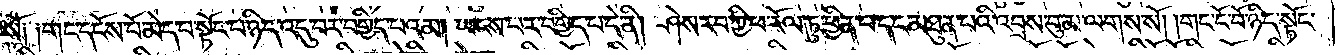སོ༑ ༑གང་དངོས་པོ་མེད་པ་སྟོང་པ་ཉིད་འདུ་བར་བགྱིད་པའམ། ཡངས་པར་བགྱིད་པ་དེ་ནི། ཤེས་རབ་ཀྱི་ཕ་རོལ་ཏུ་ཕྱིན་པ་དང་མཐུན་པའི་འབྲས་བུ་མ་ལགས་སོ། །གང་ངོ་བོ་ཉིད་སྟོང་
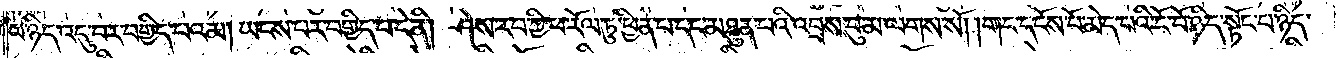པ་ཉིད་འདུ་བར་བགྱིད་པའམ། ཡངས་པར་བགྱིད་པ་དེ་ནི། ཤེས་རབ་ཀྱི་ཕ་རོལ་ཏུ་ཕྱིན་པ་དང་མཐུན་པའི་འབྲས་བུ་མ་ལགས་སོ། །གང་དངོས་པོ་མེད་པའི་ངོ་བོ་ཉིད་སྟོང་པ་ཉིད་
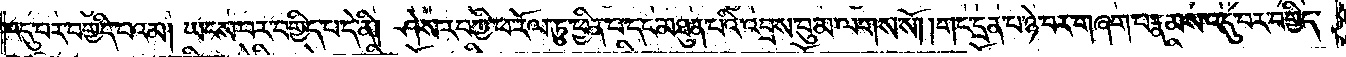འདུ་བར་བགྱིད་པའམ། ཡངས་པར་བགྱིད་པ་དེ་ནི། ཤེས་རབ་ཀྱི་ཕ་རོལ་ཏུ་ཕྱིན་པ་དང་མཐུན་པའི་འབྲས་བུ་མ་ལགས་སོ། །གང་དྲན་པ་ཉེ་བར་གཞག་པ་རྣམས་འདུ་བར་བགྱིད་
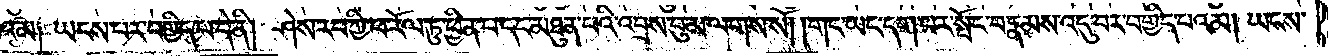པའམ༑ ཡངས་པར་བགྱིད་པ་དེ་ནི། ཤེས་རབ་ཀྱི་ཕ་རོལ་ཏུ་ཕྱིན་པ་དང་མཐུན་པའི་འབྲས་བུ་མ་ལགས་སོ། །གང་ཡང་དག་པར་སྤོང་བ་རྣམས་འདུ་བར་བགྱིད་པའམ། ཡངས་
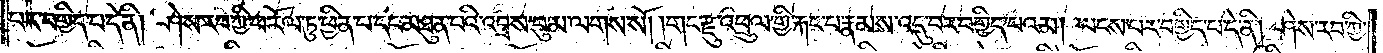པར་བགྱིད་པ་དེ་ནི། ཤེས་རབ་ཀྱི་ཕ་རོལ་ཏུ་ཕྱིན་པ་དང་མཐུན་པའི་འབྲས་བུ་མ་ལགས་སོ། །གང་རྫུ་འཕྲུལ་གྱི་རྐང་པ་རྣམས་འདུ་བར་བགྱིད་པའམ། ཡངས་པར་བགྱིད་པ་དེ་ནི། ཤེས་རབ་ཀྱི་
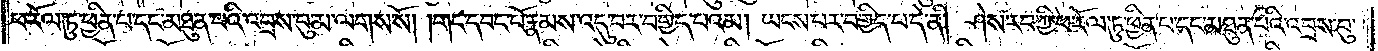ཕ་རོལ་ཏུ་ཕྱིན་པ་དང་མཐུན་པའི་འབྲས་བུ་མ་ལགས་སོ། །གང་དབང་པོ་རྣམས་འདུ་བར་བགྱིད་པའམ། ཡངས་པར་བགྱིད་པ་དེ་ནི། ཤེས་རབ་ཀྱི་ཕ་རོལ་ཏུ་ཕྱིན་པ་དང་མཐུན་པའི་འབྲས་བུ་
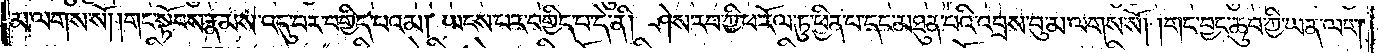མ་ལགས་སོ། །གང་སྟོབས་རྣམས་འདུ་བར་བགྱིད་པའམ། ཡངས་པར་བགྱིད་པ་དེ་ནི། ཤེས་རབ་ཀྱི་ཕ་རོལ་ཏུ་ཕྱིན་པ་དང་མཐུན་པའི་འབྲས་བུ་མ་ལགས་སོ། །གང་བྱང་ཆུབ་ཀྱི་ཡན་ལག་
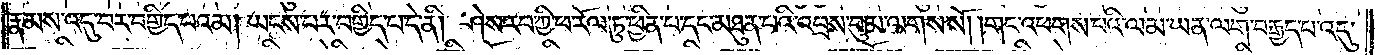རྣམས་འདུ་བར་བགྱིད་པའམ། ཡངས་པར་བགྱིད་པ་དེ་ནི། ཤེས་རབ་ཀྱི་ཕ་རོལ་ཏུ་ཕྱིན་པ་དང་མཐུན་པའི་འབྲས་བུ་མ་ལགས་སོ། །གང་འཕགས་པའི་ལམ་ཡན་ལག་བརྒྱད་པ་འདུ་
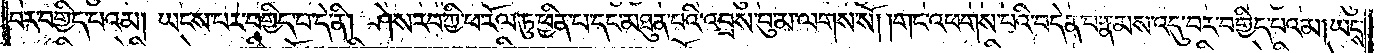བར་བགྱིད་པའམ། ཡངས་པར་བགྱིད་པ་དེ་ནི། ཤེས་རབ་ཀྱི་ཕ་རོལ་ཏུ་ཕྱིན་པ་དང་མཐུན་པའི་འབྲས་བུ་མ་ལགས་སོ། །གང་འཕགས་པའི་བདེན་པ་རྣམས་འདུ་བར་བགྱིད་པའམ། ཡངས་
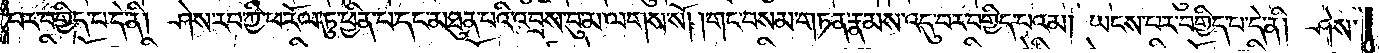པར་བགྱིད་པ་དེ་ནི། ཤེས་རབ་ཀྱི་ཕ་རོལ་ཏུ་ཕྱིན་པ་དང་མཐུན་པའི་འབྲས་བུ་མ་ལགས་སོ། །གང་བསམ་གཏན་རྣམས་འདུ་བར་བགྱིད་པའམ། ཡངས་པར་བགྱིད་པ་དེ་ནི། ཤེས་
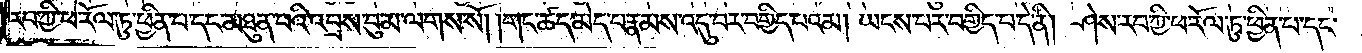རབ་ཀྱི་ཕ་རོལ་ཏུ་ཕྱིན་པ་དང་མཐུན་པའི་འབྲས་བུ་མ་ལགས་སོ། །གང་ཚད་མེད་པ་རྣམས་འདུ་བར་བགྱིད་པའམ། ཡངས་པར་བགྱིད་པ་དེ་ནི། ཤེས་རབ་ཀྱི་ཕ་རོལ་ཏུ་ཕྱིན་པ་དང་
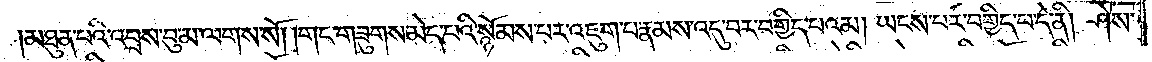མཐུན་པའི་འབྲས་བུ་མ་ལགས་སོ། །གང་གཟུགས་མེད་པའི་སྙོམས་པར་འཇུག་པ་རྣམས་འདུ་བར་བགྱིད་པའམ། ཡངས་པར་བགྱིད་པ་དེ་ནི། ཤེས་
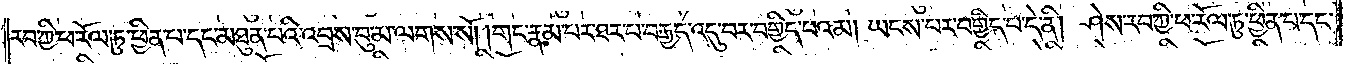རབ་ཀྱི་ཕ་རོལ་ཏུ་ཕྱིན་པ་དང་མཐུན་པའི་འབྲས་བུ་མ་ལགས་སོ། །གང་རྣམ་པར་ཐར་པ་བརྒྱད་འདུ་བར་བགྱིད་པའམ། ཡངས་པར་བགྱིད་པ་དེ་ནི། ཤེས་རབ་ཀྱི་ཕ་རོལ་ཏུ་ཕྱིན་པ་དང་
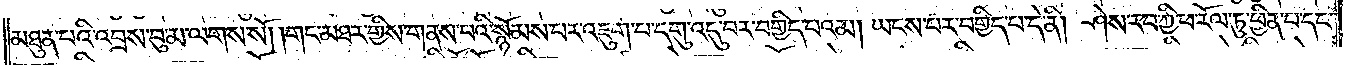མཐུན་པའི་འབྲས་བུ་མ་ལགས་སོ། །གང་མཐར་གྱིས་གནས་པའི་སྙོམས་པར་འཇུག་པ་དགུ་འདུ་བར་བགྱིད་པའམ། ཡངས་པར་བགྱིད་པ་དེ་ནི། ཤེས་རབ་ཀྱི་ཕ་རོལ་ཏུ་ཕྱིན་པ་དང་
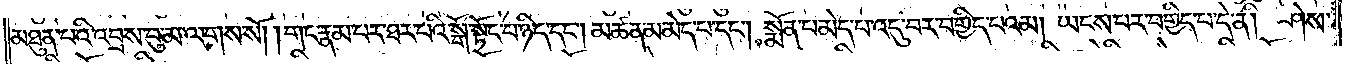མཐུན་པའི་འབྲས་བུ་མ་ལགས་སོ། །གང་རྣམ་པར་ཐར་པའི་སྒོ་སྟོང་པ་ཉིད་དང༌། མཚན་མ་མེད་པ་དང༌། སྨོན་པ་མེད་པ་འདུ་བར་བགྱིད་པའམ། ཡངས་པར་བགྱིད་པ་དེ་ནི། ཤེས་
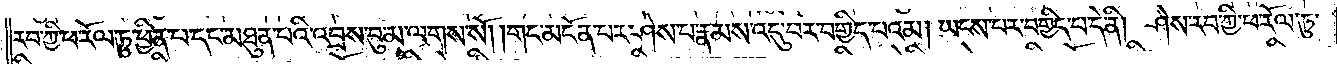རབ་ཀྱི་ཕ་རོལ་ཏུ་ཕྱིན་པ་དང་མཐུན་པའི་འབྲས་བུ་མ་ལགས་སོ། །གང་མངོན་པར་ཤེས་པ་རྣམས་འདུ་བར་བགྱིད་པའམ། ཡངས་པར་བགྱིད་པ་དེ་ནི། ཤེས་རབ་ཀྱི་ཕ་རོལ་ཏུ་
